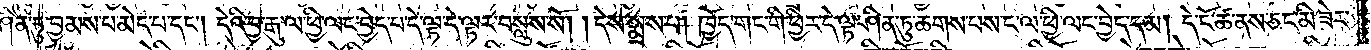ཤིན་ཏུ་བྱམས་པ་མེད་པ་དང༌། དེའི་བྱ་རྒུ་ལ་ཕྱི་ལང་བྱེད་པ་དེ་ལྟ་དེ་ལྟར་བསླུས་སོ། །དེས་སྨྲས་པ། ཁྱོད་གང་གི་ཕྱིར་དེ་ལྟ་ཤིན་ཏུ་ཆགས་པས་ང་ལ་ཕྱི་ལང་བྱེད་དམ། དེ་ངོ་ཚ་ནས་ཅང་མི་ཟེར་
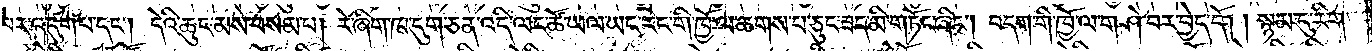བར་འདུག་པ་དང༌། དེའི་ཆུང་མས་བསམ་པ། རེ་ཞིག་ཁ་དུག་ཅན་འདི་ལང་ཚོ་ཡལ་ཡང་རང་གི་ཁྱོ་ལ་ཆགས་པ་ཅུང་ཟད་མི་གཏོང་ཞིང༌། བདག་གི་ཁྱོ་ལ་གཤེ་བར་བྱེད་དོ། །སྙམ་དུ་རིག་
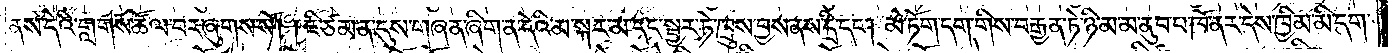ནས་དེའི་གླགས་ཚོལ་བར་ཞུགས་སོ། །ཇི་ཙམ་ན་དུས་གཞན་ཞིག་ན་དེའི་མ་སྐར་མ་དང་སྦྱར་ཏེ་ཁྲུས་བྱས་ནས་དྲི་དང༌། མེ་ཏོག་དག་གིས་བརྒྱན་ཏེ་ཉི་མ་མ་ནུབ་པ་ཁོ་ནར་དེས་ཁྱིམ་མི་དག་
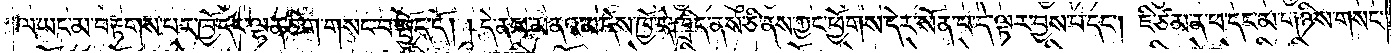ལ་ཡང་མ་བརྟགས་པར་ཁྱོ་དང་ལྷན་ཅིག་གསང་བ་སྤྱོད་དོ། །དེ་ནས་མནའ་མ་དེས་ཁྱོ་དེ་ཁྲིད་ནས་ཅི་ནས་ཀྱང་ཕྱོགས་དེར་སོན་པ་དེ་ལྟར་བྱས་པ་དང༌། ཇི་ཙམ་ན་ཕ་དང་མ་གཉིས་གསང་
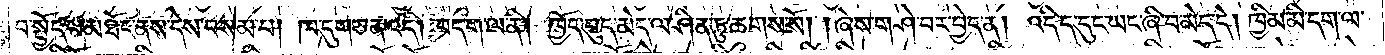བ་སྤྱོད་པ་མཐོང་ནས་དེས་བསམ་པ། ཁ་དུག་ཅན་འདི། བདག་ལ་ནི། ཁྱོད་བུད་མེད་ལ་ཤིན་ཏུ་ཆགས་སོ། །ཞེས་གཤེ་བར་བྱེད་ན། འདི་ད་དུང་ཡང་ཞི་བ་མེད་དེ། ཁྱིམ་མི་དག་ལ་
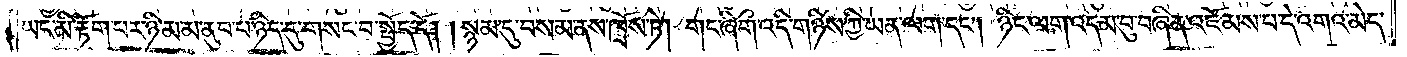ཡང་མི་རྟོག་པར་ཉི་མ་མ་ནུབ་པ་ཉིད་དུ་གསང་བ་སྤྱོད་དོ། །སྙམ་དུ་བསམ་ནས་ཁྲོས་ཏེ། གང་ཞིག་འདི་གཉིས་ཀྱི་ཡན་ལག་དང༌། ཉིང་ལག་འདམ་བུ་བཞིན་འཇོམས་པ་དེ་འགའ་མེད་
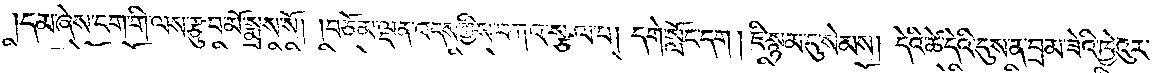དམ་ཞེས་ངག་གི་ལས་རྩུབ་མོ་སྨྲས་སོ། །བཅོམ་ལྡན་འདས་ཀྱིས་བཀའ་སྩལ་པ། དགེ་སློང་དག །ཇི་སྙམ་དུ་སེམས། དེའི་ཚེ་དེའི་དུས་ན་བྲམ་ཟེའི་ཁྱེའུར་
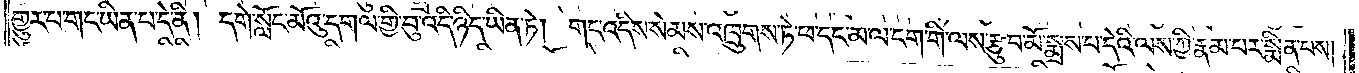གྱུར་པ་གང་ཡིན་པ་དེ་ནི། དགེ་སློང་མོའུ་དགལ་གྱི་བུ་འདི་ཉིད་ཡིན་ཏེ། གང་འདིས་སེམས་འཁྲུགས་ཏེ་ཕ་དང་མ་ལ་ངག་གི་ལས་རྩུབ་མོ་སྨྲས་པ་དེའི་ལས་ཀྱི་རྣམ་པར་སྨིན་པས།
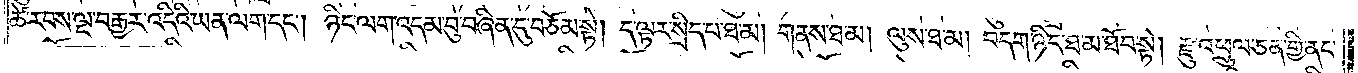ཚེ་རབས་ལྔ་བརྒྱར་འདིའི་ཡན་ལག་དང༌། ཉིང་ལག་འདམ་བུ་བཞིན་དུ་བཅོམ་སྟེ། ད་ལྟར་སྲིད་པ་ཐ་མ། གནས་ཐ་མ། ལུས་ཐ་མ། བདག་ཉིད་ཐ་མ་ཐོབ་སྟེ། རྫུ་འཕྲུལ་ཅན་གྱི་ནང་
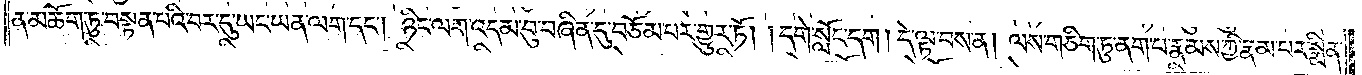ན་མཆོག་ཏུ་བསྟན་པའི་བར་དུ་ཡང་ཡན་ལག་དང༌། ཉིང་ལག་འདམ་བུ་བཞིན་དུ་བཅོམ་པར་གྱུར་ཏོ། །དགེ་སློང་དག །དེ་ལྟ་བས་ན། ལས་གཅིག་ཏུ་ནག་པ་རྣམས་ཀྱི་རྣམ་པར་སྨིན་
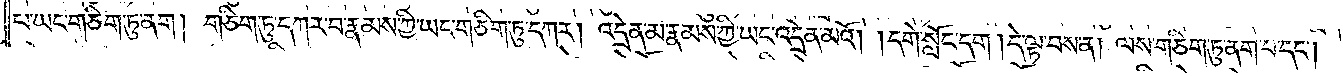པ་ཡང་གཅིག་ཏུ་ནག། གཅིག་ཏུ་དཀར་བ་རྣམས་ཀྱི་ཡང་གཅིག་ཏུ་དཀར། འདྲེན་མ་རྣམས་ཀྱི་ཡང་འདྲེན་མའོ། །དགེ་སློང་དག །དེ་ལྟ་བས་ན། ལས་གཅིག་ཏུ་ནག་པ་དང༌།
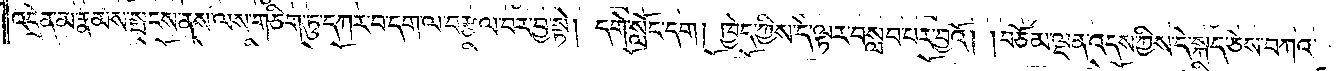འདྲེན་མ་རྣམས་སྤངས་ནས་ལས་གཅིག་ཏུ་དཀར་བ་དག་ལ་བརྩལ་བར་བྱ་སྟེ། དགེ་སློང་དག །ཁྱེད་ཀྱིས་དེ་ལྟར་བསླབ་པར་བྱའོ། །བཅོམ་ལྡན་འདས་ཀྱིས་དེ་སྐད་ཅེས་བཀའ་
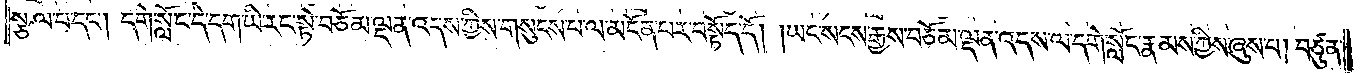སྩལ་པ་དང༌། དགེ་སློང་དེ་དག་ཡི་རང་སྟེ་བཅོམ་ལྡན་འདས་ཀྱིས་གསུངས་པ་ལ་མངོན་པར་བསྟོད་དོ། །ཡང་སངས་རྒྱས་བཅོམ་ལྡན་འདས་ལ་དགེ་སློང་རྣམས་ཀྱིས་ཞུས་པ། བཙུན་
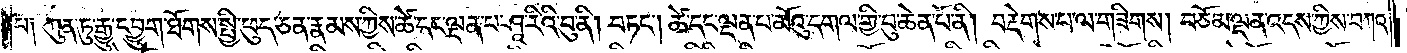པ༑ ཀུན་ཏུ་རྒྱུ་དབྱུག་ཐོགས་སྤྱི་ཕུད་ཅན་རྣམས་ཀྱིས་ཚེ་དང་ལྡན་པ་ཤཱ་རིའི་བུ་ནི། བཏང༌། ཚེ་དང་ལྡན་པ་མོའུ་དགལ་གྱི་བུ་ཆེན་པོ་ནི། བརྡེགས་པ་ལ་གཟིགས། བཅོམ་ལྡན་འདས་ཀྱིས་བཀའ་
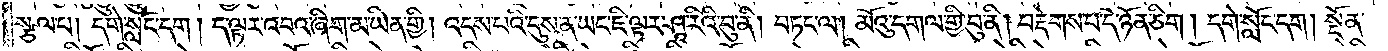སྩལ་པ། དགེ་སློང་དག། ད་ལྟར་འབའ་ཞིག་མ་ཡིན་གྱི། འདས་པའི་དུས་ན་ཡང་ཇི་ལྟར་ཤཱ་རིའི་བུ་ནི། བཏང་ལ། མོའུ་དགལ་གྱི་བུ་ནི། བརྡེགས་པ་དེ་ཉོན་ཅིག །དགེ་སློང་དག །སྔོན་
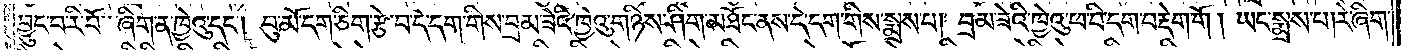བྱུང་བ་རི་བོ་ཞིག་ན་ཁྱེའུ་དང༌། བུ་མོ་དག་ཅིག་རྩེ་བ་དེ་དག་གིས་བྲམ་ཟེའི་ཁྱེའུ་གཉིས་ཤིག་མཐོང་ནས་དེ་དག་གིས་སྨྲས་པ། བྲམ་ཟེའི་ཁྱེའུ་ཕ་བི་དག་བརྡེག་གོ །ཡང་སྨྲས་པ། རེ་ཞིག་
